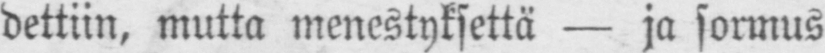dettiin, mutta menestyksettä — ja sormus
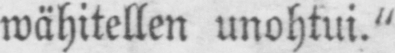wähitellen unohtui."
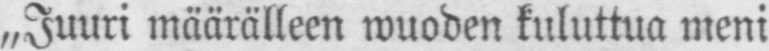„Juuri määrälleen wuoden kuluttua meni
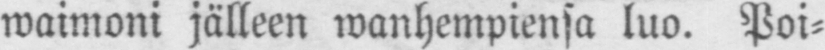waimoni jälleen wanhempiensa luo. Poi-
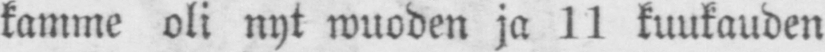kamme oli nyt wuoden ja 11 kuukauden
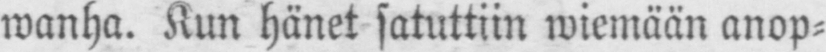wanha. Kun hänet satuttiin wiemään anop-
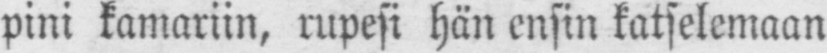pini kamariin, rupesi hän ensin katselemaan
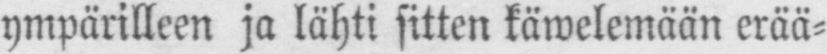ympärilleen ja lähti sitten käwelemään erää-
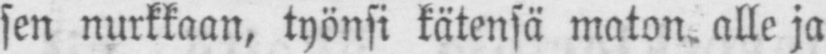sen nurkkaan, työnsi kätensä maton alle ja
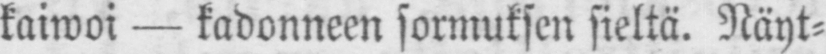kaiwoi — kadonneen sormuksen sieltä. Näyt-
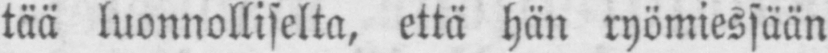tää luonnolliselta, että hän ryömiessään
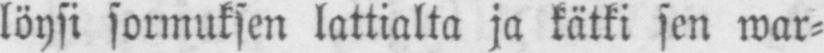löysi sormuksen lattialta ja kätki sen war-
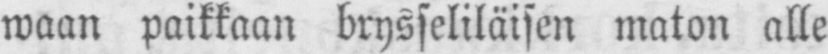waan paikkaan brysseliläisen maton alle
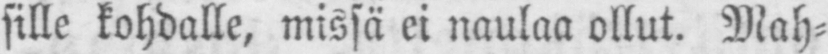sille kohdalle, missä ei naulaa ollut. Mah-
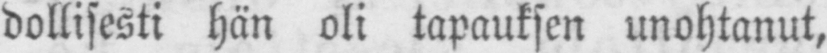dollisesti hän oli tapauksen unohtanut,
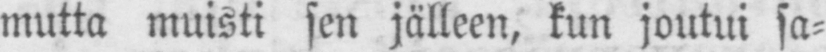mutta muisti sen jälleen, kun joutui sa-
